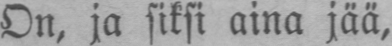On, ja siksi aina jää,
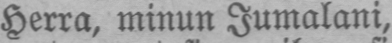Herra, minun Jumalani,
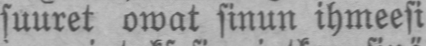suuret owat sinun ihmeesi
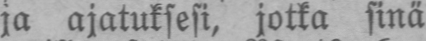ja ajatuksesi, jotka sinä
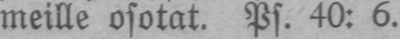meille osotat. Ps. 40: 6.
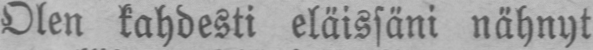Olen kahdesti eläissäni nähnyt
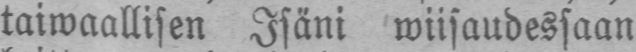taiwaallisen Isäni wiisaudessaan
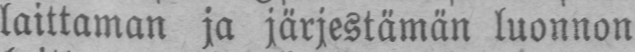laittaman ja järjestämän luonnon
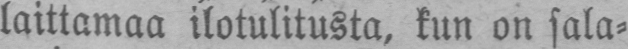laittamaa ilotulitusta, kun on sala-
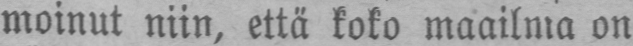moinut niin, että koko maailma on
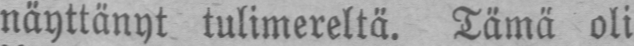näyttänyt tulimereltä. Tämä oli
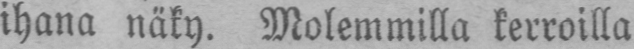ihana näky. Molemmilla kerroilla
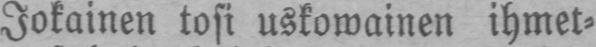Jokainen tosi uskowainen ihmet-
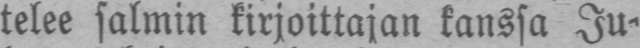telee salmin kirjoittajan kanssa Ju-
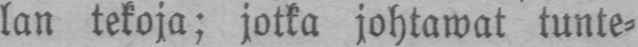kan tekoja; jotka johtawat tunte-
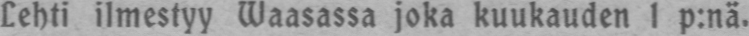Lehti ilmestyy Waasassa joka kuukauden 1 p:nä.
